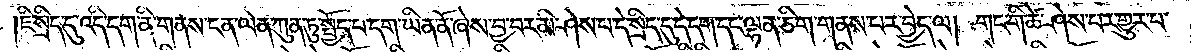ཇི་སྲིད་དུ་འདི་དག་ནི་གནས་ངན་ལེན་ཀུན་ཏུ་སྤྱོད་པ་དག་ཡིན་ནོ་ཞེས་བྱ་བར་མི་ཤེས་པ་དེ་སྲིད་དུ་དེ་དག་དང་ལྷན་ཅིག་གནས་པར་བྱེད་ལ། གང་གི་ཚེ་ཤེས་པར་གྱུར་པ་
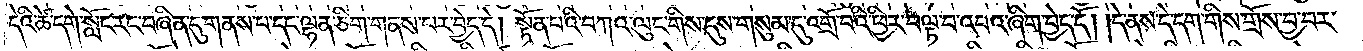དེའི་ཚེ་དགེ་སློང་རང་བཞིན་དུ་གནས་པ་དང་ལྷན་ཅིག་གནས་པར་བྱེད་དེ། སྟོན་པའི་བཀའ་ལུང་གིས་དུས་གསུམ་དུ་འགྲོ་བའི་ཕྱིར་བལྟ་བ་འབའ་ཞིག་བྱེད་དོ། །དེ་ནས་དེ་དག་གིས་གྲོས་བྱ་བར་
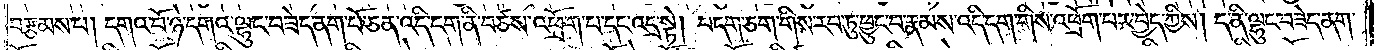བརྩམས་པ། དགའ་བོ་ཉེ་དགའ་ལྷུང་བཟེད་ནག་པོ་ཅན་འདི་དག་ནི་བཙས་འཕྲོག་པ་དང་འདྲ་སྟེ། བདག་ཅག་གིས་རབ་ཏུ་ཕྱུང་བ་རྣམས་འདི་དག་གིས་འཕྲོག་པར་བྱེད་ཀྱིས། ད་ནི་ལྷུང་བཟེད་ནག་
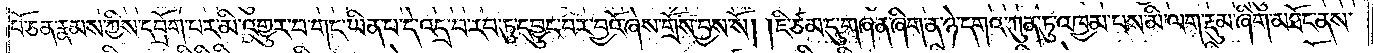པོ་ཅན་རྣམས་ཀྱིས་དབྲོག་པར་མི་འགྱུར་བ་གང་ཡིན་པ་དེ་འདྲ་བ་རབ་ཏུ་དབྱུང་བར་བྱའོ་ཞེས་གྲོས་བྱས་སོ། །ཇི་ཙམ་དུ་གཞན་ཞིག་ན་ཉེ་དགའ་ཀུན་ཏུ་འཁྱམ་པས་མི་ལག་རྡུམ་ཞིག་མཐོང་ནས་
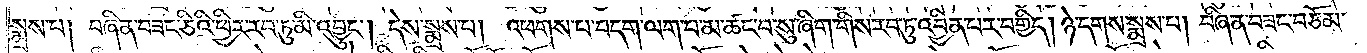སྨྲས་པ། བཞིན་བཟང་ཅིའི་ཕྱིར་རབ་ཏུ་མི་འབྱུང༌། དེས་སྨྲས་པ། འཕགས་པ་བདག་ལག་པ་མ་ཚང་བ་སུ་ཞིག་གིས་རབ་ཏུ་འབྱིན་པར་བགྱིད། ཉེ་དགས་སྨྲས་པ། བཞིན་བཟང་བཅོམ་
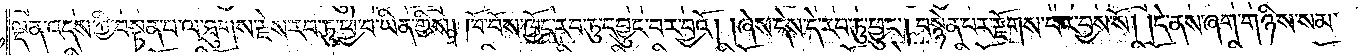ལྡན་འདས་ཀྱི་བསྟན་པ་ལ་ཐུགས་རྗེས་རབ་ཏུ་ཕྱེ་བ་ཡིན་གྱིས། ཁོ་བོས་ཁྱོད་རབ་ཏུ་དབྱུང་བར་བྱའོ། །ཞེས་དེས་དེ་རབ་ཏུ་ཕྱུང༌། བསྙེན་པར་རྫོགས་པར་བྱས་སོ། །དེ་ནས་ཞག་གཉིས་སམ་
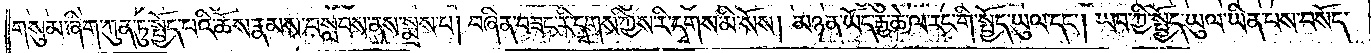གསུམ་ཞིག་ཀུན་ཏུ་སྤྱོད་པའི་ཆོས་རྣམས་བསླབས་ནས་སྨྲས་པ། བཞིན་བཟང་རི་དྭགས་ཀྱིས་རི་དྭགས་མི་སོས། མཉན་ཡོད་རྒྱ་ཆེ་ལ་རང་གི་སྤྱོད་ཡུལ་དང༌། ཡབ་ཀྱི་སྤྱོད་ཡུལ་ཡིན་པས་བསོད་
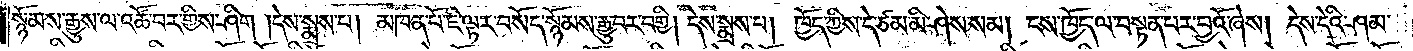སྙོམས་རྒྱུས་ལ་འཚོ་བར་གྱིས་ཤིག །དེས་སྨྲས་པ། མཁན་པོ་ཇི་ལྟར་བསོད་སྙོམས་རྒྱུ་བར་བགྱི། དེས་སྨྲས་པ། ཁྱོད་ཀྱིས་དེ་ཙམ་མི་ཤེས་སམ། ངས་ཁྱོད་ལ་བསྟན་པར་བྱའོ་ཞེས། དེས་དེའི་ཤམ་
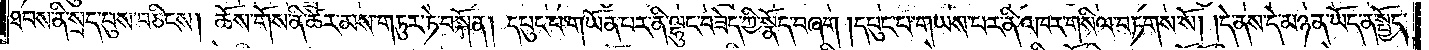ཐབས་ནི་སྲད་བུས་བཅིངས། ཆོས་གོས་ནི་ཚོར་མས་གཏུར་ཏེ་བསྐོན། དཔུང་པ་གཡོན་པར་ནི་ལྷུང་བཟེད་ཀྱི་སྣོད་བཞག །དཔུང་བ་གཡས་པར་ནི་འཁར་གསིལ་བཏགས་སོ། །དེ་ནས་དེ་མཉན་ཡོད་ན་སྤྱོད་
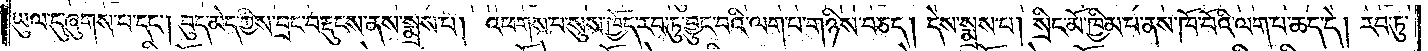ཡུལ་དུ་ཞུགས་པ་དང༌། བུད་མེད་ཀྱིས་བྲང་བརྡུངས་ནས་སྨྲས་པ། འཕགས་པ་སུས་ཁྱོད་རབ་ཏུ་བྱུང་བའི་ལག་པ་གཉིས་བཅད། དེས་སྨྲས་པ། སྲིང་མོ་ཁྱིམ་པ་ནས་ཁོ་བོའི་ལག་པ་ཆད་དེ། རབ་ཏུ་
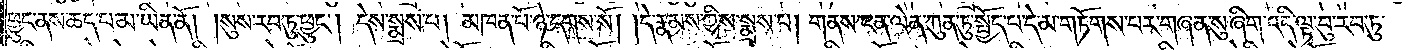ཕྱུང་ནས་ཆད་པ་མ་ཡིན་ནོ། །སུས་རབ་ཏུ་ཕྱུང༌། དེས་སྨྲས་པ། མཁན་པོ་ཉེ་དགས་སོ། །དེ་རྣམས་ཀྱིས་སྨྲས་པ། གནས་ངན་ལེན་ཀུན་ཏུ་སྤྱོད་པ་དེ་མ་གཏོགས་པར་གཞན་སུ་ཞིག་འདི་ལྟ་བུ་རབ་ཏུ་
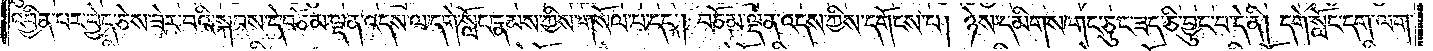འབྱིན་པར་བྱེད་ཅེས་ཟེར་བའི་སྐབས་དེ་བཅོམ་ལྡན་འདས་ལ་དགེ་སློང་རྣམས་ཀྱིས་གསོལ་པ་དང༌། བཅོམ་ལྡན་འདས་ཀྱིས་དགོངས་པ། ཉེས་དམིགས་གང་ཅུང་ཟད་ཅི་བྱུང་བ་དེ་ནི། དགེ་སློང་དག་ལག་
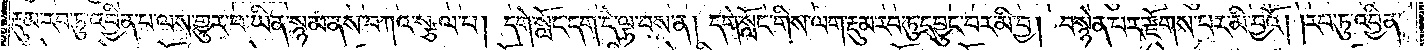རྡུམ་རབ་ཏུ་འབྱིན་པ་ལས་གྱུར་པ་ཡིན་སྙམ་ནས་བཀའ་སྩལ་པ། དགེ་སློང་དག་དེ་ལྟ་བས་ན། དགེ་སློང་གིས་ལག་རྡུམ་རབ་ཏུ་དབྱུང་བར་མི་བྱ། བསྙེན་པར་རྫོགས་པར་མི་བྱའོ། །རབ་ཏུ་འབྱིན་
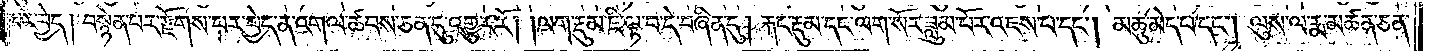པར་བྱེད། བསྙེན་པར་རྫོགས་པར་བྱེད་ན་འགལ་ཚབས་ཅན་དུ་འགྱུར་རོ། །ལག་རྡུམ་ཇི་ལྟ་བ་དེ་བཞིན་དུ། རྐང་རྡུམ་དང་ལག་པོར་ཟླུམ་པོར་འཇས་པ་དང༌། མཆུ་མེད་པ་དང༌། ལུས་ལ་རྨ་མཚན་ཅན་
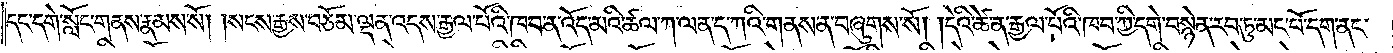དང་དགེ་སློང་གནས་རྣམས་སོ། །སངས་རྒྱས་བཅོམ་ལྡན་འདས་རྒྱལ་པོའི་ཁབ་ན་འོད་མའི་ཚལ་ཀ་ལན་ད་ཀའི་གནས་ན་བཞུགས་སོ། །དེའི་ཚེ་ན་རྒྱལ་པོའི་ཁབ་ཀྱི་དགེ་བསྙེན་རབ་ཏུ་མང་པོ་དག་ནང་
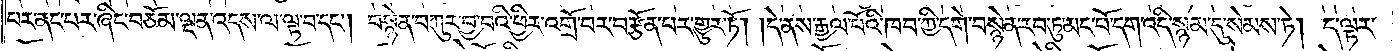པར་ནང་པར་ཞིང་བཅོམ་ལྡན་འདས་ལ་ལྟ་བ་དང༌། བསྙེན་བཀུར་བྱ་བའི་ཕྱིར་འགྲོ་བར་བརྩོན་པར་གྱུར་ཏོ། །དེ་ནས་རྒྱལ་པོའི་ཁབ་ཀྱི་དགེ་བསྙེན་རབ་ཏུ་མང་པོ་དག་འདི་སྙམ་དུ་སེམས་ཏེ། ད་ལྟར་
